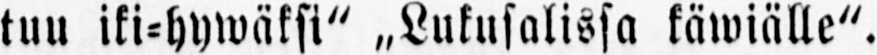tuu iki-hywäksi" ˶Lukusalissa käwiälle".
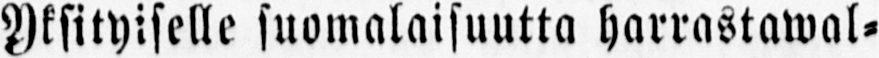Yksityiselle suomalaisuutta harrastawal-
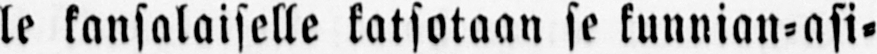le kansalaiselle katsotaan se kunnian-asi-
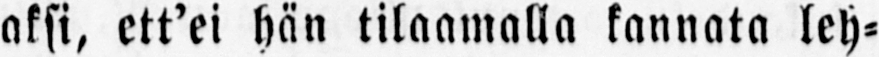aksi, ett'ei hän tilaamalla kannata leh-
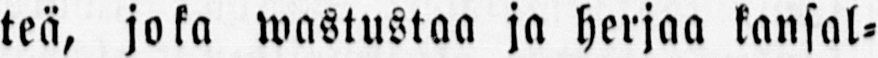teä, joka wastustaa ja herjaa kansal-
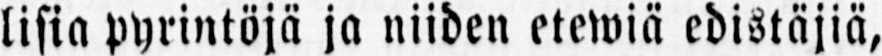lisia pyrintöjä ja niiden etewiä edistäjiä,
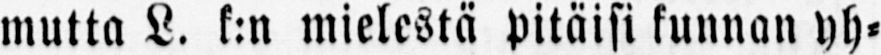mutta L. k:n mielestä pitäisi kunnan yh-
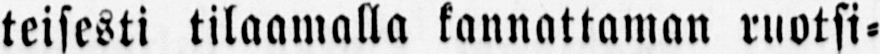teisesti tilaamalla kannattaman ruotsi-
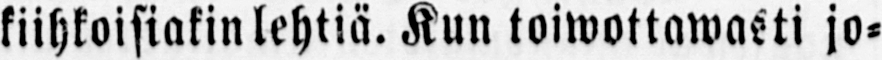kiihkoisiakin lehtiä. Kun toiwottawasti jo-
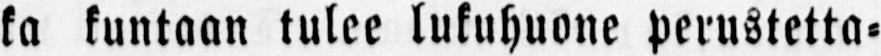ka kuntaan tulee lukuhuone perustetta-
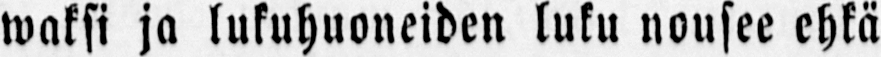waksi ja lukuhuoneiden luku nousee ehkä
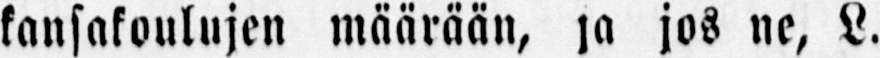kansakoulujen määrään, ja jos ne, L.
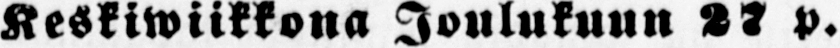Keskiwiikkona Joulukuun 27 p.
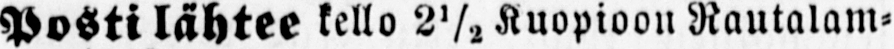Posti lähtee kello 2½ Kuopioon Rautalam-
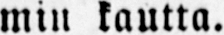min kautta.
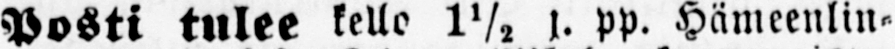Posti tulee kello 1½ l. pp. Hämeenlin-
